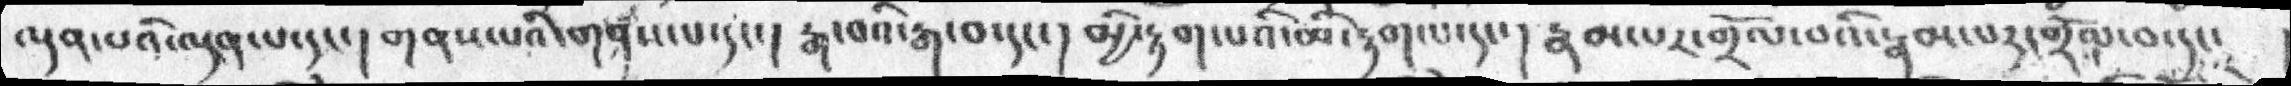ལྡན་པའི་ལྡན་པ་དང་།  གནས་པའི་གནས་པ་དང་།  རྒ་བའི་རྒ་བ་དང་།  མྱི་རྟག་པའི་མི་རྟག་པ་དང་།  རྣམ་པར་གྲོལ་བའི་རྣམ་པར་གྲོལ་བ་དང་
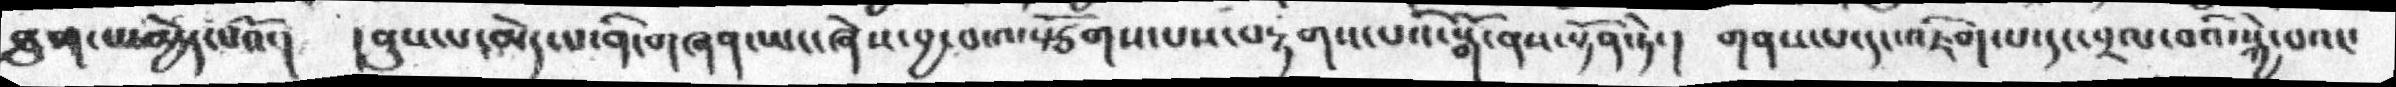ཐུག་པ་མྱེད་པའོ་།  །ནུས་པ་མེད་པ་ནི་གཞན་ཡང་ཞེས་བྱ་བ་ལསྩོགས་པས་བརྟགས་པའི་སྒོ་ནས་སྟོན་ཏེ་།  གནས་པ་དང་འཇིག་པ་དང་བྲལ་བའི་སྐྱེ་བའང་
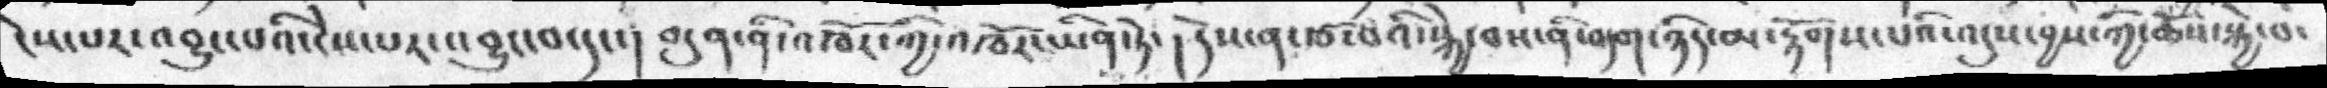ངེས་པར་འབྱུང་པའི་ངེས་པར་འབྱུང་བ་དང་།  བདུན་ནི་འཁོར་ཀྱི་འཁོར་ཡིན་ཏེ་།  དེས་ན་རྩ་བའི་སྐྱེ་བས་ནི་བདག་ཉིད་མ་རྟོགས་པའི་འདུས་བྱས་ཀྱི་ཆོས་སྐྱེ་བ་
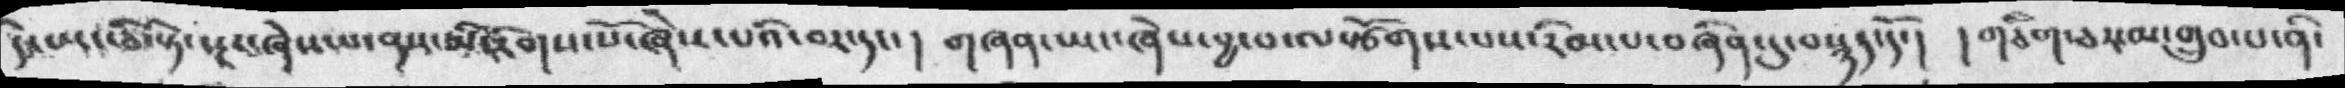དེ་ཡང་ཅི་སྟེ་སྔར་ཞེས་པ་ནས་མི་རིགས་པོ་ཞེས་པའི་བར་དང་།  གཞན་ཡང་ཞེས་བྱ་བ་ལསྩོགས་པས་རིམ་པ་བཞིན་དུ་བསྙད་དོ་།  ། གཅིག་ཅར་མ་གྲུབ་པ་ནི་
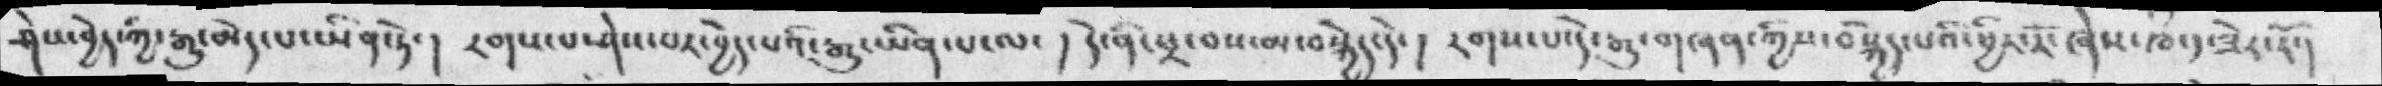ཤེས་བྱེད་ཀྱི་རྒྱུ་མེད་པ་ཡིན་ཏེ་།  རགས་པ་ཤེས་པར་བྱེད་པའི་རྒྱུ་ཡིན་པ་ལ་།  དེ་ནི་ཕྲ་བས་མ་བསྐྱེད་དེ་། རགས་པ་དེ་རྒྱུ་གཞན་ཀྱིས་བསྐྱེད་པའི་ཕྱིར་རོ་ཞེས་ཁ༡ཟེར་རོ་།
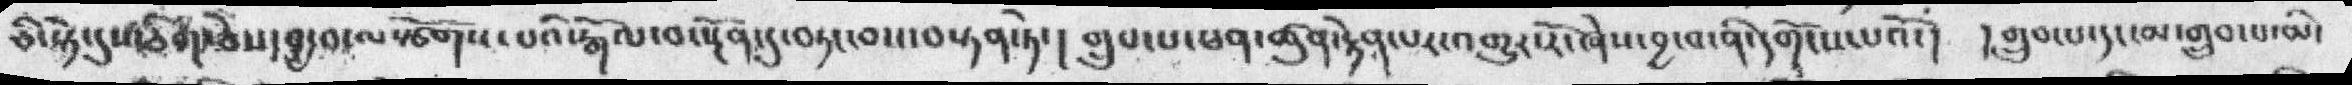ཅི་སྟེ་དུས་ཅིག་ཅེས་བྱ་བ་ལསྩོགས་པའི་རྒོལ་བ་སྔོན་དུ་བཏང་བས་བསྟན་ཏེ་།  གྲུབ་པ་ཕན་ཚུན་རྟེན་པར་འགྱུར་རོ་ཞེས་བྱ་བ་ནི་དགོངས་པའོ་།  །གྲུབ་པ་དང་མ་གྲུབ་པ་མི་
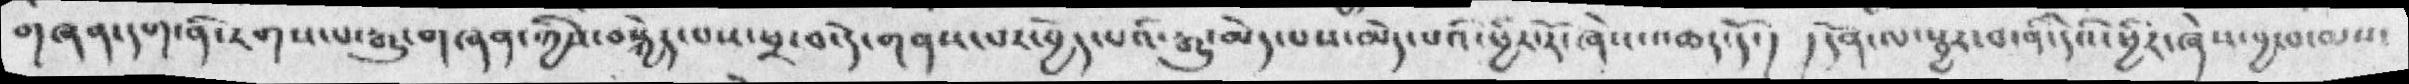གཞན་དག་ནི་རགས་པ་རྒྱུ་གཞན་ཀྱིས་བསྐྱེད་པས་ཕྲ་བ་དེ་གནས་པར་བྱེད་པའི་རྒྱུ་མེད་པས་མེད་པའི་ཕྱིར་རོ་ཞེས་འཆད་དོ་།   །དོན་ལ་སྦྱར་བ་ནི་དེའི་ཕྱིར་ཞེས་བྱ་བ་ལས་
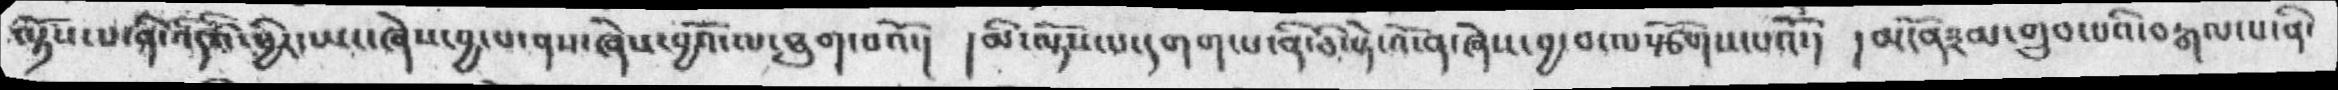ལྟོས་པ་ནི་འདིའི་ཕྱིར་ཡང་ཞེས་བྱ་པ་ནས་ཞེས་བྱའོ་ལ་ཐུག་པའོ་།   །མི་ལྟོས་པ་དགག་པ་ནི་ཅི་སྟེ་འོ་ན་ཞེས་བྱ་བ་ལསྩོགས་པའོ་།   །མངོན༣མ་གྲུབ་པའི་བརྒལ་པ་ནི་
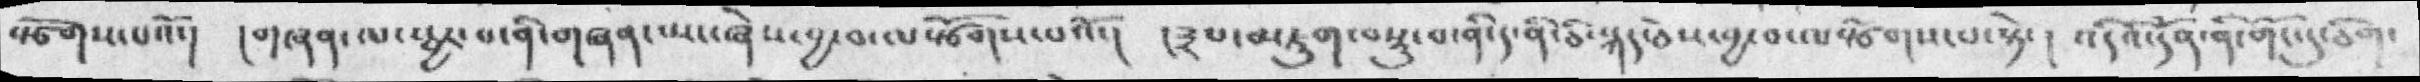སྩོགས་པའོ་།  །གཞན་ལ་སྦྱར་པ་ནི་གཞན་ཡང་ཞེས་བྱ་བ་ལསྩོགས་པའོ་།  །༣པ་མཇུག་བསྡུ་བ་ནི་ད་ནི་ཅི་སྐད་ཅེས་བྱ་བ་ལསྩོགས་པ་སྟེ་།  འདིའི་དོན་ནི་གོང་དུ་ཅིག་
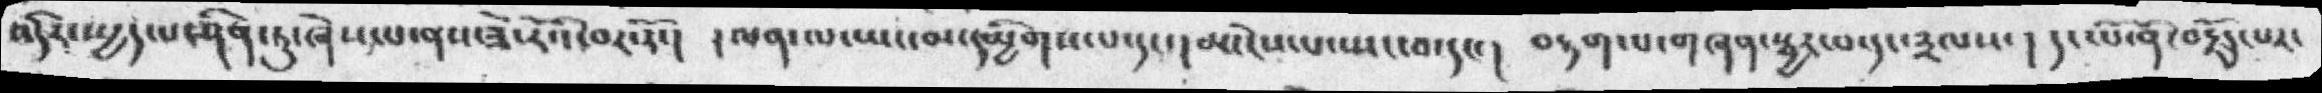འདིར་སྤྱད་པ་ཤིན་ཏུ་ཞེས་པ་ནས་ཟེ་རོའི་བར་རོ་།  ། ལན་ལ་ཡང་མ་དམྱིགས་པ་དང་། མ་ངེས་པ་ཡང་བ་དང་།  བརྟག་པ་གཞན་སྦྱར་པ་དང་༣ལས་།  དང་པོ་ནི་བརྗོད་པར་
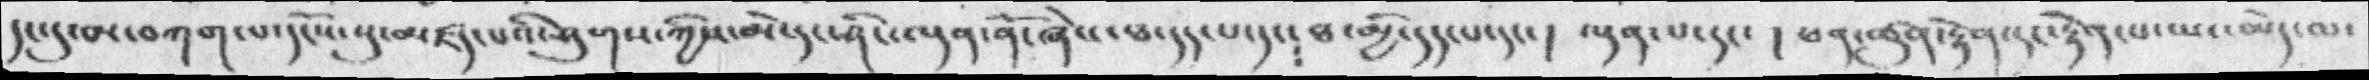དང་དུ་མ་བཀག་པ་དངོས་སུ་མཛད་པའི་ཤུགས་ཀྱིས་མེ་དང་ཤིང་ལྡན་ནོ་ཞེས་ཐ་དད་པ་དང་༴ཐ་མྱི་དད་པ་དང་།  ལྡན་པ་དང་ ། ཕན་ཚུན་རྟེན་དང་རྟེན་པ་ཡང་མེད་ལ་
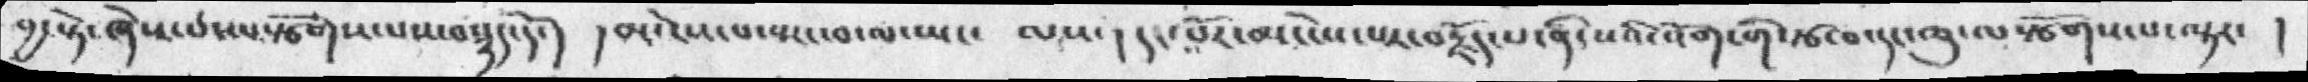བྱ་སྟེ་ཞེས་པ་ལཙོགས་པས་བསྙད་དོ་།  ། མ་ངེས་པ་སྤང་བ་ལ་ཡང་  ལས་། དང་པོར་མ་ངེས་པར་བརྗོད་པ་ནི་སའི་འོག་གི་རྩ་བ་དང་ཁུ་ལ་སྩོགས་པ་ལྟར་  །
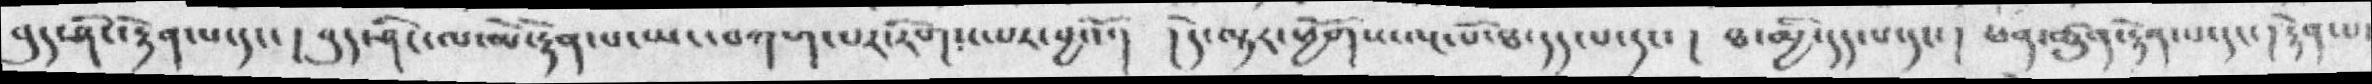བུད་ཤིང་རྟེན་པ་དང་། བུད་ཤིང་ལ་མེ་རྟེན་པ་ཡང་བཀག་པར་རིགས་པར་བྱའོ་།  ། དེ་ལྟར་ཕྱོགས་ལྔ་པོ་ཐ་དད་པ་དང་།  ཐ་མྱི་དད་པ་དང་།  ཕན་ཚུན་རྟེན་པ་དང་། རྟེན་པ་
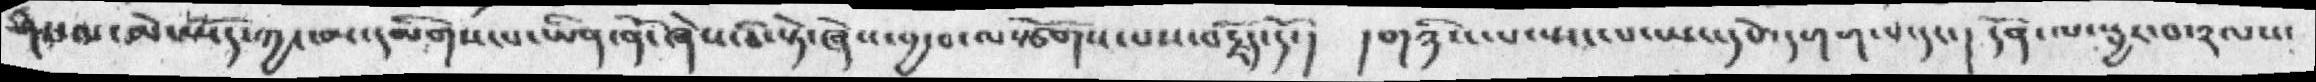ཤིང་ལ་མེ་ཡོད་ཀྱང་མ་དམིགས་པ་ཡིན་ནོ་ཞེས་ཅེ་སྟེ་ཞེས་བྱ་བ་ལསྩོགས་པས་བརྗོད་དོ་།  ། གཉིས་པ་སྤང་པ་ཡང་དཔེ་དགག་པ་དང་། དོན་ལ་སྦྱར་བ་༢ལས་
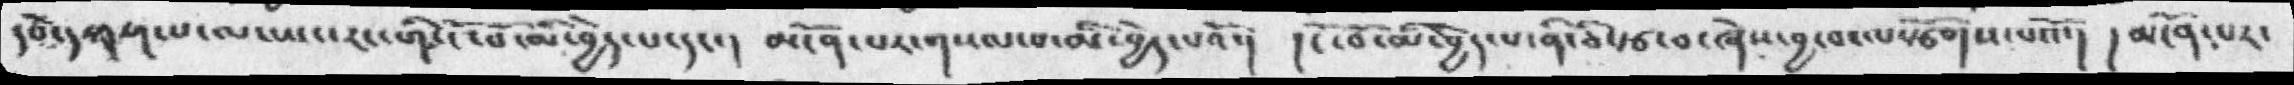དཔེ་དགག་པ་ལ་ཡང་རང་གི་ངོ་བོ་མི་བྱེད་པ་དང་།  མངོན་པར་གསལ་པ་མི་བྱེད་པའོ་།  ། ངོ་བོ་མི་བྱེད་པ་ནི་ཅི་རྩ་བ་ཞེས་བྱ་བ་ལསྩོགས་པའོ་།  ། མངོན་པར་
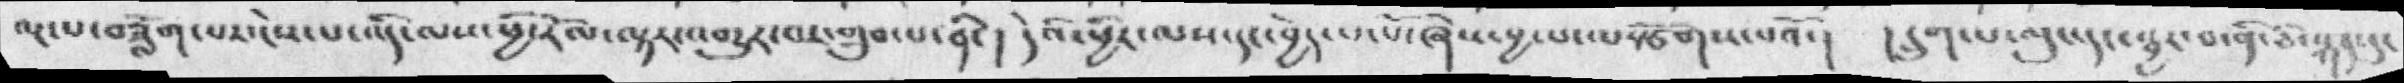ལྔ་པ་བཟློག་པར་ངེས་པ་འདི་ལས་ཕྱི་རོལ་ལྟར་འགྱུར་བར་གྲུབ་པ་ནི་།  དེའི་ཕྱིར་ལས་དང་བྱེད་པ་པོ་ཞེས་བྱ་པ་ལསྩོགས་པའོ་།  ། དྲུག་པ་ལུང་དང་སྦྱར་བ་ནི་ཅི་སྐད་དུ་
